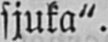sjuka".
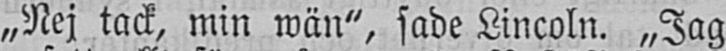„Nej tack, min wän", sade Lincoln. „Jag
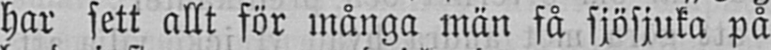har sett allt för många män få sjösjuka på
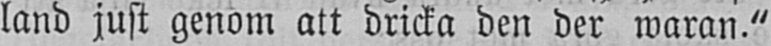land just genom att dricka den der waran."
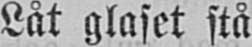Låt glaset stå
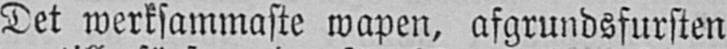Det werksammaste wapen, afgrundsfursten
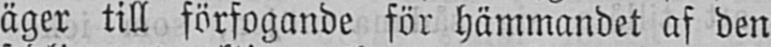äger till förfogande för hämmandet af den
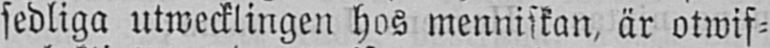sedliga utwecklingen hos menniskan, är otwif-
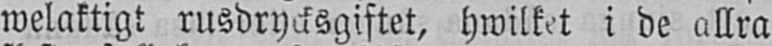welaktigt rusdrycksgiftet, hwilket i de allra
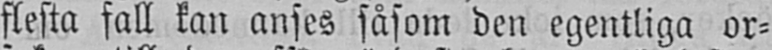flesta fall kan anses såsom den egentliga or-
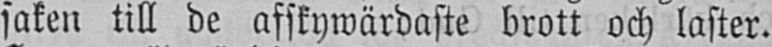saken till de afskywärdaste brott och laster.
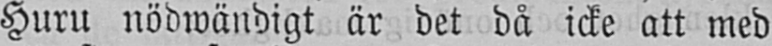Huru nödwändigt är det då icke att med
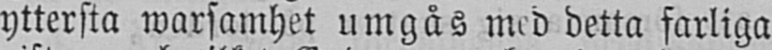yttersta warsamhet umgås med detta farliga
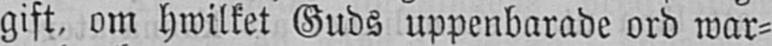gift, om hwilket Guds uppenbarade ord war-
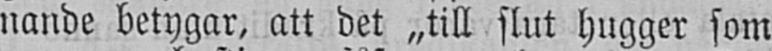nande betygar, att det „till slut hugger som
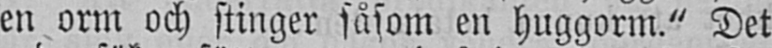en orm och stinger såsom en huggorm." Det
